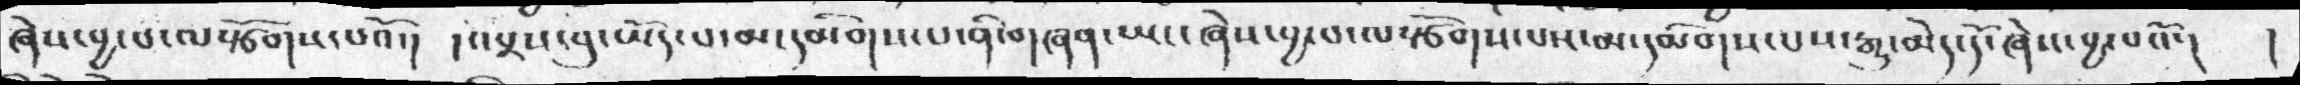ཞེས་བྱ་བ་ལསྩོགས་པའོ་།  ། འབྲས་བུ་ཡོད་པ་མ་དམིགས་པ་ནི་གཞན་ཡང་ཞེས་བྱ་བ་ལསྩོགས་པས་མ་དམིགས་པས་རྒྱུ་མེད་དོ་ཞེས་བྱ་བའོ་།   །
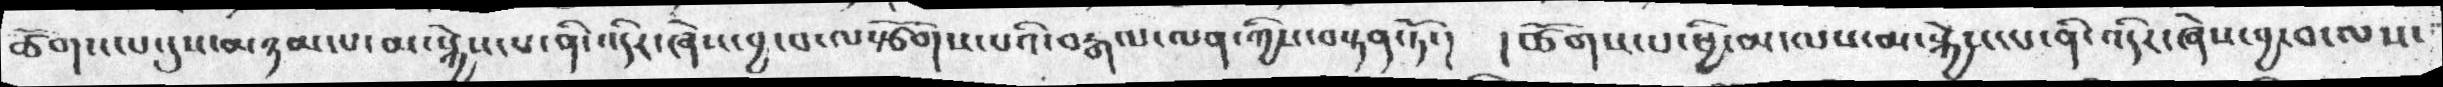ཚོགས་པ་དུས་མཉམ་པ་མ་སྐྱེས་པ་ནི་འདིར་ཞེས་བྱ་བ་ལསྩོགས་པའི་བརྒལ་ལན་ཀྱིས་བསྟན་ཏོ་།  །ཚོགས་པ་ཕྱི་མ་ལས་མ་སྐྱེས་པ་ནི་འདིར་ཞེས་བྱ་བ་ལས་
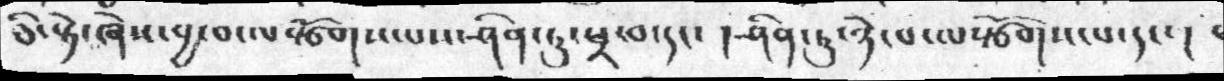ཅི་སྟེ་ཞེས་བྱ་བ་ལསྩོགས་པས་ཤིན་ཏུ་ཕྲ་བ་དང་ ། ཤིན་ཏུ་ཉེ་པ་ལསྩོགས་པ་དང་།
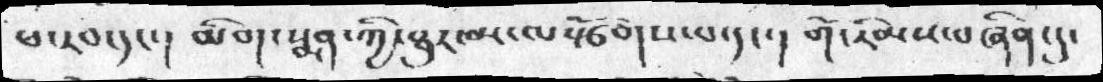ཕ་རབ་དང་།  མིག་སྨན་ཀྱི་ཐུར་མ་ལསྩོགས་པ་དང་།  གོ་རིམས་བཞིན་དུ་
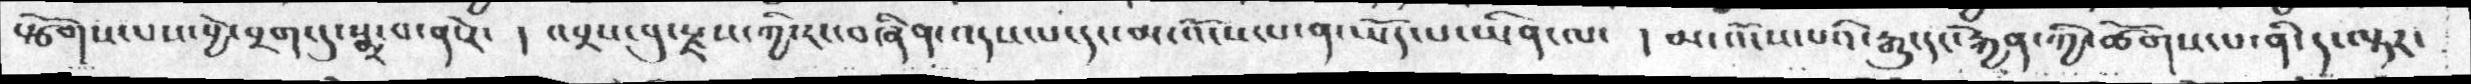སྩོགས་པས་བྱེ་བྲག་དུ་སྨྲ་པ་ན་རེ་   ། འབྲས་བུ་རྫས་ཀྱི་རང་བཞིན་འདས་པ་དང་མ་འོངས་པ་ན་ཡོད་པ་ཡིན་ལ་  ། མ་འོངས་པའི་རྒྱུ་དང་རྐྱེན་ཀྱི་ཚོགས་པ་ནི་ད་ལྟར་
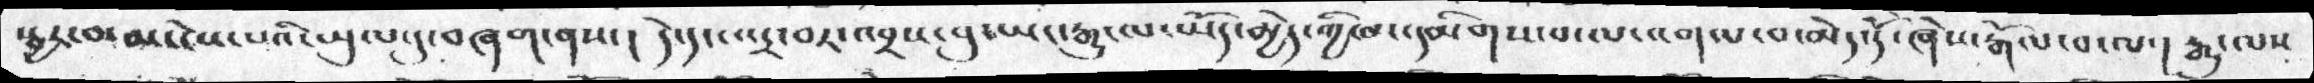སྦྱར་བ་མ་ངེས་པའི་ཡུལ་དུ་བཞག་ནས་།  དེ་དང་འདྲ་བར་འབྲས་བུ་ཡང་རྒྱུ་ལ་ཡོད་མྱེད་ཀྱི་ལ་དམིགས་པ་ལ་འགལ་བ་མེད་དོ་ཞེས་རྒོལ་བ་ལ་། རྒྱུ་ལས
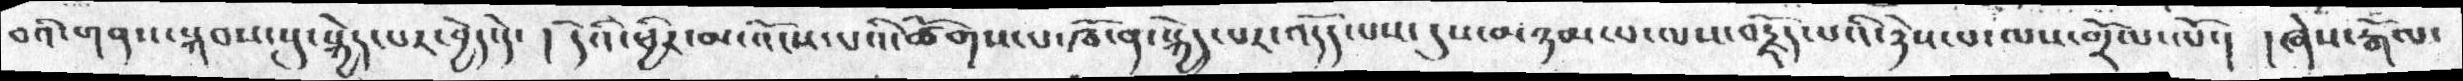བའི་གནས་སྐབས་སུ་སྐྱེད་པར་བྱེད་དེ་ ། དེའི་ཕྱིར་མ་འོངས་པའི་ཚོགས་པ་ཁོ་ན་སྐྱེད་པར་འདོད་པས་དུས་མཉམ་པ་ལས་བརྗོད་པའི་ཉེས་པ་ལས་གྲོལ་ལོ་། ། ཞེས་རྒོལ་
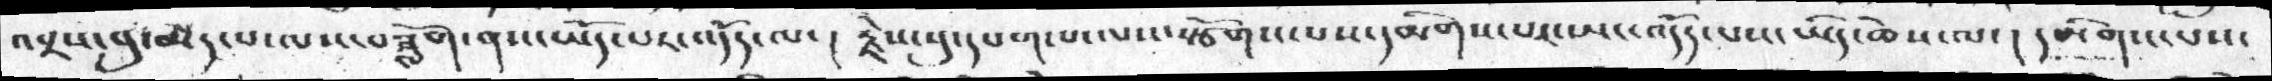འབྲས་བུ་མེད་པ་ལས་བཟློག་ནས་ཡོད་པར་འདོད་ལ་།  རྗེས་སུ་དཔག་པ་ལས་རྩོགས་པས་དམིགས་པར་ཡང་འདོད་པས་ཡིད་ཆེས་ལ་།  དམིགས་པས་
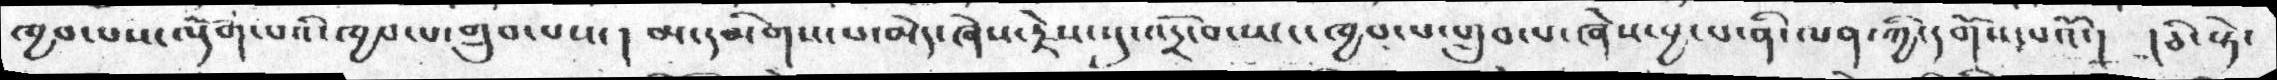ཁྱབ་པས་ལྡོག་པའི་ཁྱབ་པ་གྲུབ་པས་།  མ་དམིགས་པ་མེད་ཞེས་རྗེས་སུ་འདྲོ་བ་ཡང་ཁྱབ་པ་གྲུབ་པ་ཞེས་བྱ་བ་ནི་ལན་ཀྱི་དགོས་པའོ་།  །ཅེ་སྟེ་
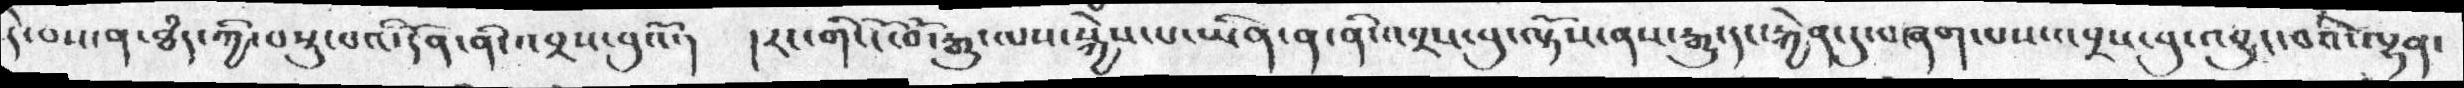དེ་བས་ན་ཐཾད་ཀྱི་བསྡུ་པའི་དོན་ནི་འབྲས་བུའོ་།  །རང་གི་ངོ་བོ་རྒྱུ་ལས་སྐྱེས་པ་ཡིན་ན་ནི་འབྲས་བུ་ལྟོས་ནས་རྒྱུ་དང་རྐྱེན་དུ་བཞག་པས་འབྲས་བུ་འབྱུང་བའི་ལྷན་
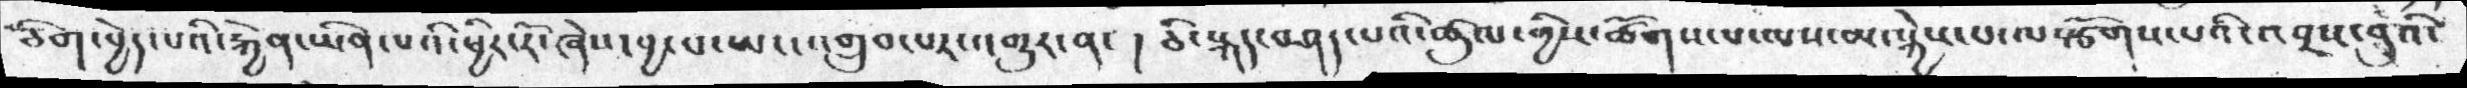ཅིག་བྱེད་པའི་རྐྱེན་ཡིན་པའི་ཕྱིར་རོ་ཞེས་བྱ་བ་ཡང་འགྲུབ་པར་འགྱུར་ན་ ། ཅི་སྐད་བཤད་པའི་ཚུལ་གྱིས་ཚོགས་པ་ལས་མ་སྐྱེས་པ་ལསྩོགས་པའི་འབྲས་བུའི་
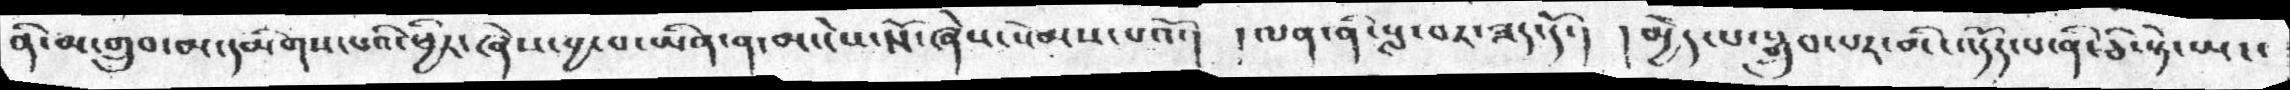ནི་མ་གྲུབ་མ་དམིགས་པའི་ཕྱིར་ཞེས་བྱ་བ་ཡིན་ན་མ་ངེས་སོ་ཞེས་སེམས་པའོ་།  ། ལན་ནི་སླ་བར་ཟད་དོ་།  ། མྱེད་པ་སྒྲུབ་པར་མི་འདོད་པ་ནི་ཅི་སྟེ་ཡང་
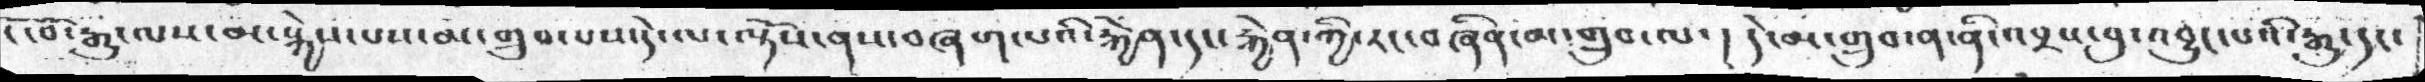ངོ་བོ་རྒྱུ་ལས་མ་སྐྱེས་པས་མ་གྲུབ་པས་དེ་ལ་ལྟོས་ནས་བཞག་པའི་རྐྱེན་དང་རྐྱེན་ཀྱི་རང་བཞིན་མ་གྲུབ་ལ་ ། དེ་མ་གྲུབ་ན་ནི་འབྲས་བུ་འབྱུང་པའི་རྒྱུ་དང་
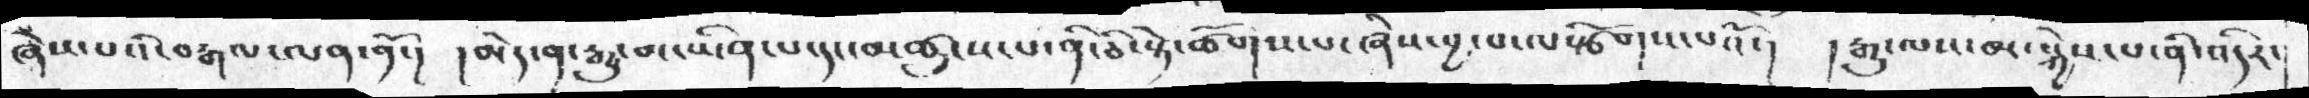ཞེས་པའི་བརྒལ་ལན་ནོ་།  ། མེད་ན་རྒྱུ་མ་ཡིན་པ་དང་མཚུངས་པ་ནི་ཅི་སྟེ་ཚོགས་པ་ཞེས་བྱ་བ་ལསྩོགས་པའོ་།  ། རྒྱུ་ལས་མ་སྐྱེས་པ་ནི་འདིར་
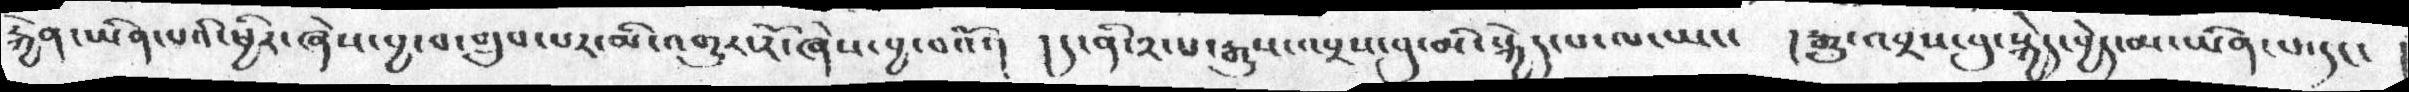རྐྱེན་ཡིན་པའི་ཕྱིར་ཞེས་བྱ་བ་གྲུབ་པར་མི་འགྱུར་རོ་ཞེས་བྱ་བའོ་།  ། ད་ནི་༢་པ་རྒྱུས་འབྲས་བུ་མི་སྐྱེད་པ་ལ་ཡང་  །རྒྱུ་འབྲས་བུ་སྐྱེད་བྱེད་མ་ཡིན་པ་དང་ །
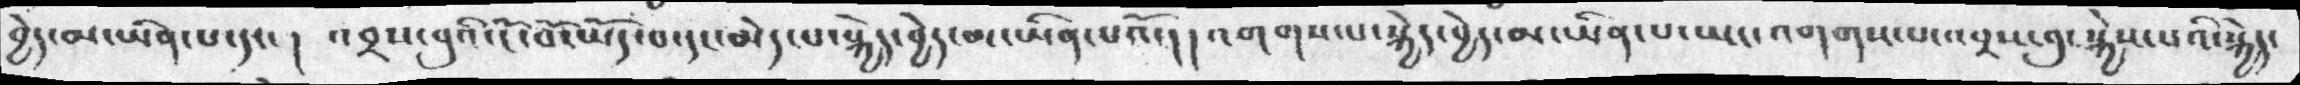བྱེད་མ་ཡིན་པ་དང་། འབྲས་བུའི་ངོ་བོ་ཡོད་པ་དང་མེདཔ་སྐྱེད་བྱེད་མ་ཡིན་པའོ་། །འགགས་པ་སྐྱེད་བྱེད་མ་ཡིན་པ་ཡང་འགགས་པ་འབྲས་བུ་སྐྱེས་པའི་སྐྱེད་
